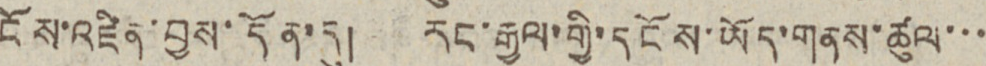ངོས་འཛིན་བྱས་དོན་དུ། རང་རྒྱལ་གྱི་དངོས་ཡོད་གནས་ཚུལ་་་
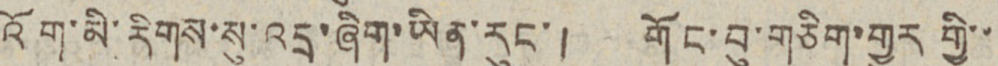འོག་མི་རིགས་སུ་འདྲ་ཞིག་ཡིན་རུང་།གོང་བུ་གཅིག་གྱུར གྱི་་
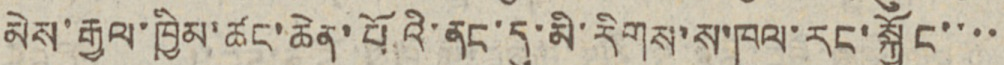མེས་རྒྱལ་ཁྱིམ་ཚང་ཆེན་པོའི་ནང་དུ་མི་རིགས་ས་ཁུལ་རང་སྐྱོང་་་་
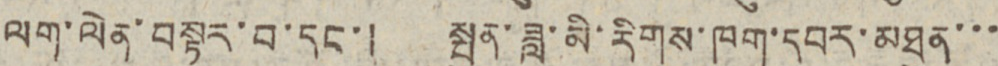ལག་ལེན་བསྟར་བ་དང་། སྤུན་ཟླ་མི་རིགས་ཁག་དབར་མཐུན་་་
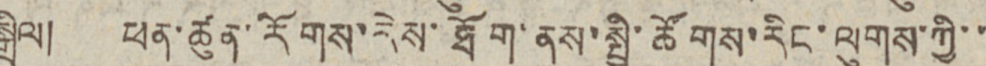སྒྲིལ། ཕན་ཚུན་རིགས་རེས་ཐོག་ནས་སྤྱི་ཚོགས་རིང་ལུགས་ཀྱི་་
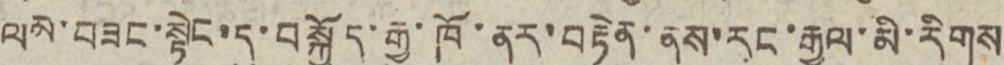ལམ་བཟང་སྟེང་དུ་བསྐྱོད་རྒྱུ་ཁོ་ནར་བརྟེན་ནས་རང་རྒྱལ་མི་རིགས
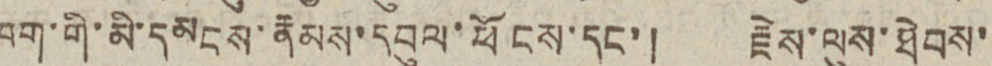ཁག་གི་མི་དམངས་རྣམས་དབུལ་ཕོངས་དང་། རྗེས་ལུས་ཐེབས་
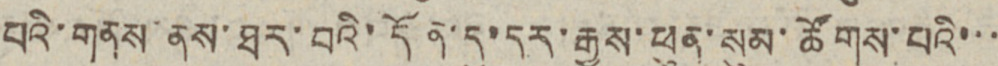པའི་གནས་ནས་ཐར་བའི་དོན་དུ་དར་རྒྱས་ཕུན་སུམ་ཚོགས་པའི་་་
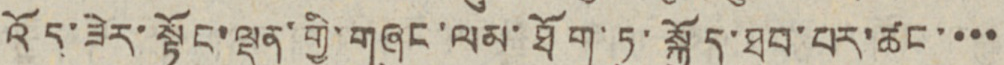འོད་ཟེར་སྟོང་ལྡན་གྱི་གཞུང་ལམ་ཐོག་ཏུ་སྐྱོད་ཐུབ་པར་ཚང་་་་
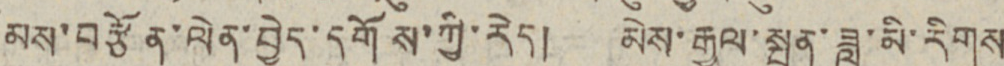མས་བརྩོན་ལེན་བྱེད་དགོས་ཀྱི་རེད། མེས་རྒཡལ་སྤུན་ཟླ་མི་རིགས
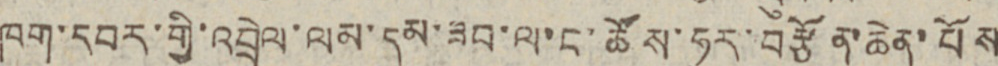ཁག་དབར་གྱི་འབྲེལ་ལམ་དམ་ཟབ་ལ་ངོ་ཚོས་ཧུར་བརྩོན་ཆེན་པོས
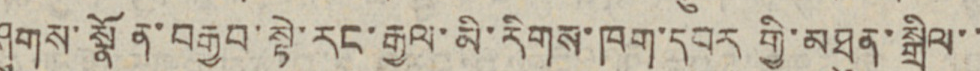ཤུགས་སྣོན་བརྒྱབ་སྟེ་རང་རྒྱལ་རིགས་ཁག་དབར གྱི་མཐུན་སྒྲིལ་་
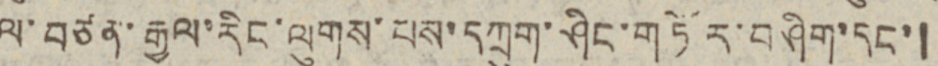ལ་བཙན་རྒྱལ་རིང་ལུགས་པས་དཀྲུག་ཤིང་གཏོར་བཤིག་དང་།
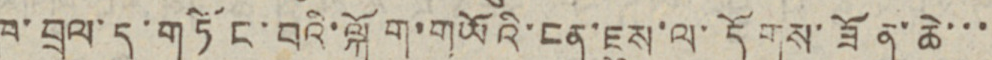ཁ་བྲལ་དུ་གཏོང་བའི་ལྐོག་གཡོའི་ངན་ཇུས་ལ་དོགས་ཟོན་ཆེ་་་
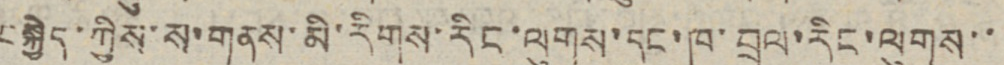བསྐྱེད་ཀྱིས་ས་གནས་མི་རིགས་རིང་ལུགས་དང་ཁ་བྲལ་རིང་ལུགས་་
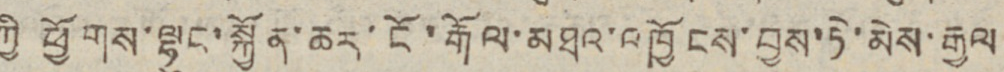ཀྱི ཕྱོགས་ལྷུང་སྐྱོན་ཆར་ངོ་རྒོལ་མཐའ་འཁྱོངས་བྱས་ཏེ་མེས་རྒྱལ
